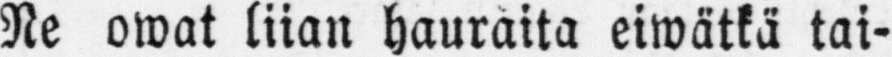Ne owat liian hauraita eiwätkä tai-
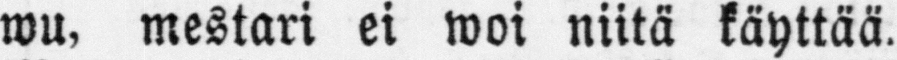wu, mestari ei woi niitä käyttää.
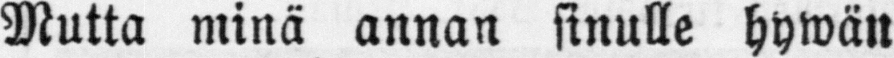Mutta minä annan sinulle hywän
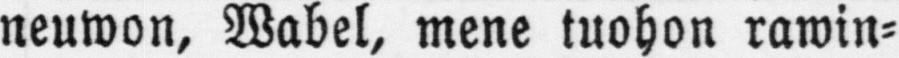neuwon, Wabel, mene tuohon rawin-
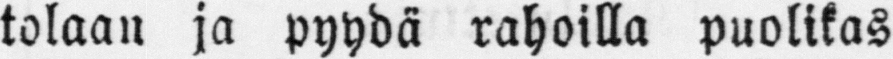tolaan ja pyydä rahoilla puolikas
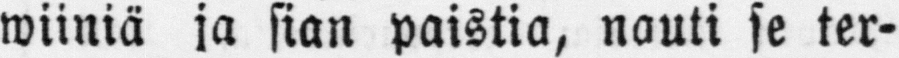wiiniä ja sian paistia, nauti se ter-
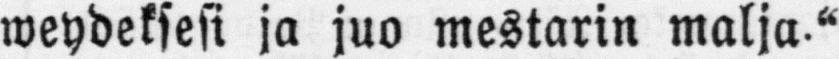weydeksesi ja juo mestarin malja."
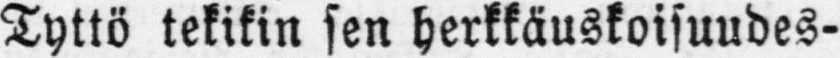Tyttö tekikin sen herkkäuskoisuudes-
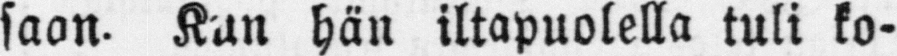saan. Kun hän iltapuolella tuli ko-
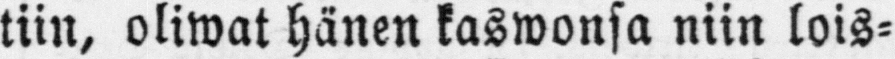tiin, oliwat hänen kaswonsa niin lois-
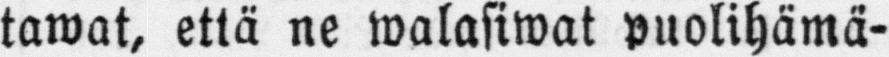tawat, että ne walasiwat puolihämä-
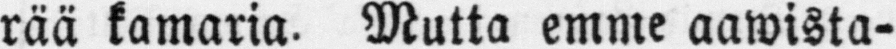rää kamaria. Mutta emme aawista-
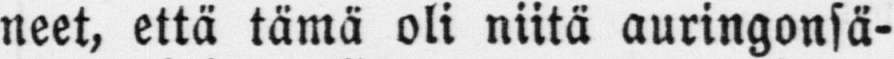neet, että tämä oli niitä auringonsä-
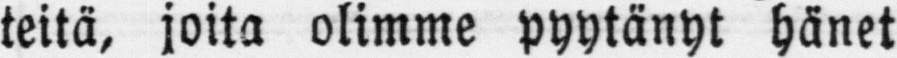teitä, joita olimme pyytänyt hänet
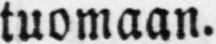tuomaan.
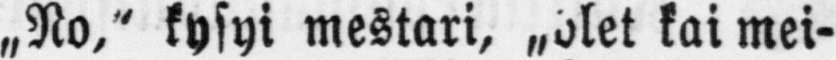„No," kysyi mestari, „olet kai mei-
